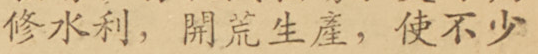修水利，開荒生產，使不少
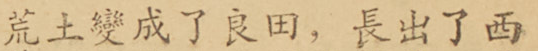荒土變成了良田，長出了西
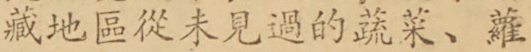藏地區從未見過的蔬菜、蘿
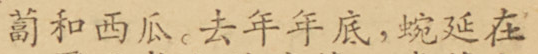蔔和西瓜。去年年底，蜿延在
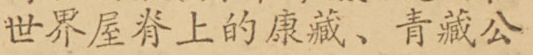世界屋脊上的康藏、青藏公
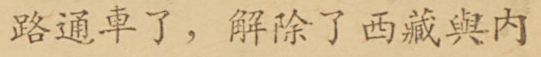路通車了，解除了西藏與內
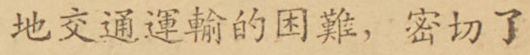地交通運輸的困難，密切了
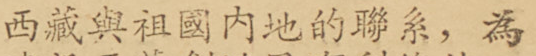西藏與祖國內地的聯系，為
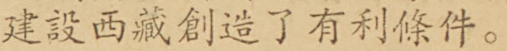建設西藏創造了有利條件。
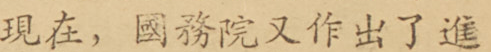現在，國務院又作出了進
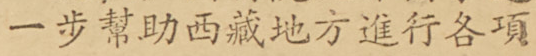一步幫助西藏地方進行各項
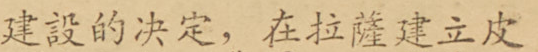建設的決定，在拉薩建立皮
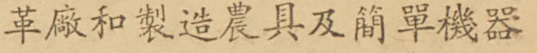革廠和製造農具及簡單機器
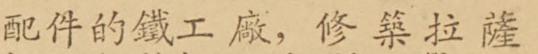配件的鐵工廠，修築拉薩
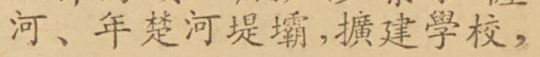河、年楚河堤壩，擴建學校，
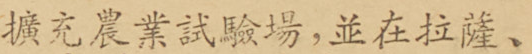擴充農業試驗場，並在拉薩、
